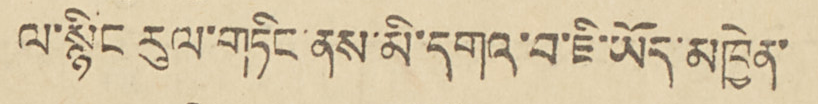ལ་སྙིང རུལ་གཏིང་ནས་མི་དགའ་བ་ཇི་ཡོད་མཁྱེན་
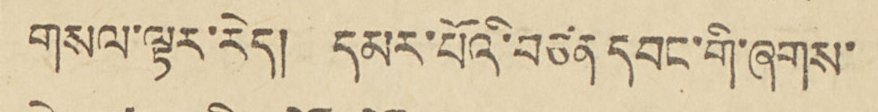གསལ་ལྟར་རེད། དམར་པོའི་བཙན་དབང་གི་ཞགས་
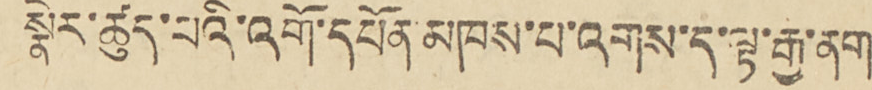སྣིར་ཚུད་པའི་འགོ་དཔོན་མཁས་པ་འགས་ད་ལྟ་རྒྱ་ནག
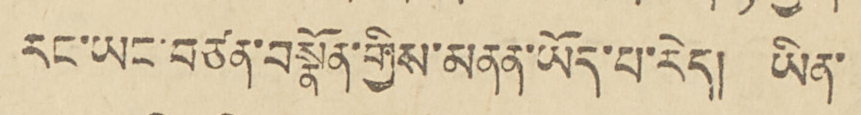རང་ཡང་བཙན་བསྣོན་གྱིས་མནན་ཡོད་པ་རེད། ཡིན་
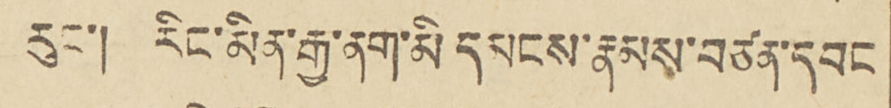རུང་། རིང་མིན་རྒྱ་ནག་མི དམངས་རྣམས་བཙན་དབང
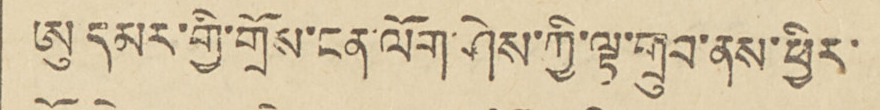ཨུ དམར་གྱོ་གྲོས་ངན་ལོག་ཤེས་ཀྱི་ལྟ་གྲུབ་ནས་ཕྱིར་
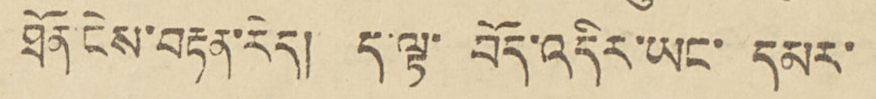ཐོན་ངེས་བརྟན་རེད། དེ་ལྟ་བོད་འདིར་ཡང་དམར་
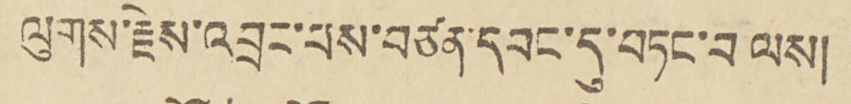ལུགས་རྗེས་འབྲང་པས་བཙན་དབང་དུ་བཏང་བ ལས།
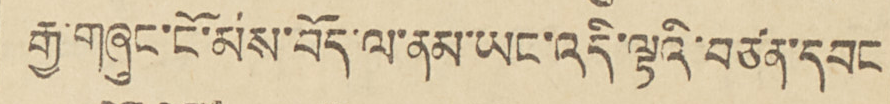རྒྱ་གཞུང་ངོ་མས་བོད་ལ་ནམ་ཡང་འདི་ལྟའི་བཙན་དབང
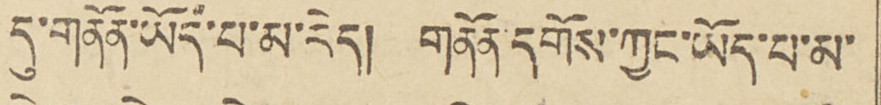དུ་གནོན་ཡོད་པ་མ་རེད། གནོན་དགོས་ཀྱང་ཡོད་པ་མ་
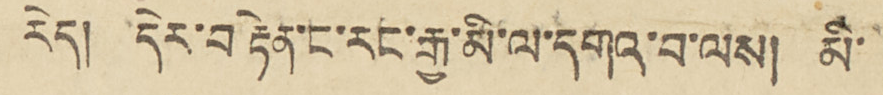རེད། དེར་བརྟེན་ང་རང་རྒྱ་མི་ལ་དགའ་བ་ལས། མི་
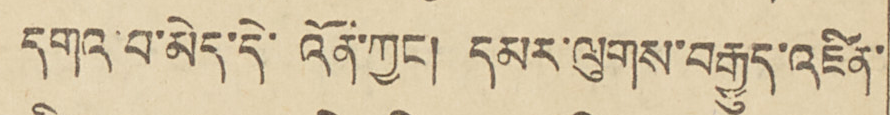དགའ་བ་མེད་དེ་འོན་ཀྱང། དམར་ལུགས་བརྒྱུད་འཛིན་
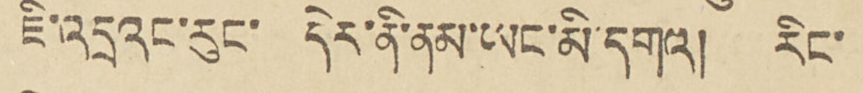ཇི་འདྲའང་རུང་དེར་ནི་ནམ་ཡང་མེད་དགའ། རིང་
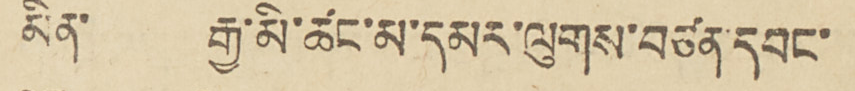མིན་རྱ་མི་ཚང་མ་དམར་ལུགས་བཙན་དབང་
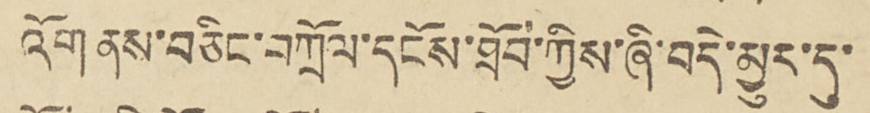འོག ནས་བཅིང་བཀྲོལ་དངོས་ཐོབ་ཀྱིས་ཞི་བདེ་མྱུར་དུ་
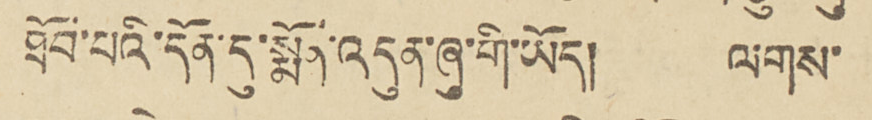ཐོབ་པའི་དོན་དུ་སྨོན་འདུན་ཞུ་གི་ཡོད། ལགས་
